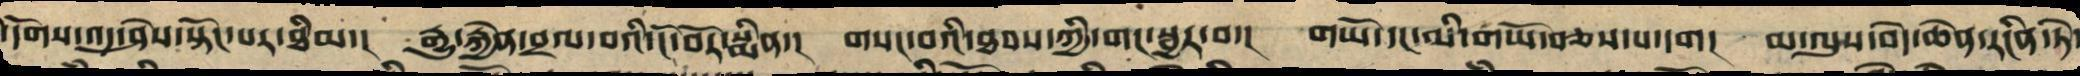་དོགས་འདུ་ཤེས་སྟོང་པར་ཐིམ་། རྒྱུ་རྐྱེན་བྲལ་བའི་ངོ་བོར་སྨིན་། གསང་བའི་ཐབས་ཀྱིས་གང་སྦྱར་བ་། གཡོ་དང་མི་གཡོ་བཅས་པ་དག། མ་ལུས་བདེ་ཆེན་རངིན་ཏེ་
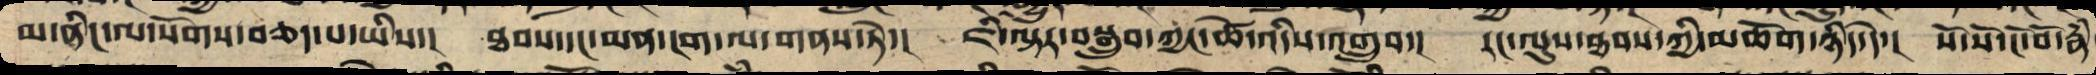མ་ནིང་ལ་སོགས་བཅད་པ་ཡིས་། ཐབས་དང་མན་ངག་ལ་གནས་ཏེ་། ཇི་ལྟར་བསྒྲུབས་ཀྱང་ཚེ་འདིས་འགྲུབ་། རང་ལུས་ཐབས་ཀྱི་མཆོག་ཉིད་དེ་། སོ་སོ་ངོ་བོར་རྣཾ
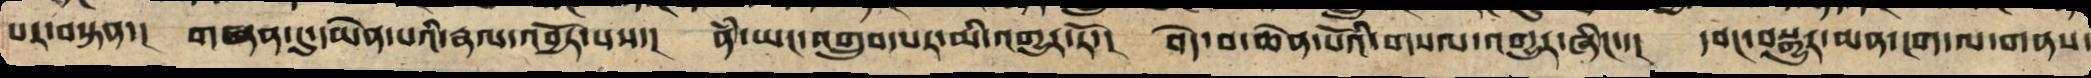པར་བསྟན་། གཞན་དུ་དམན་པའི་རྣལ་འབྱོར་པས་། ནཾ་ཡང་འགྲུབ་པར་མི་འགྱུར་རོ་། བདེ་བ་ཆེན་པོའི་གསལ་འགྱུར་ཞིང་་། དབང་བསྐུར་མན་ངག་ལ་གནས་
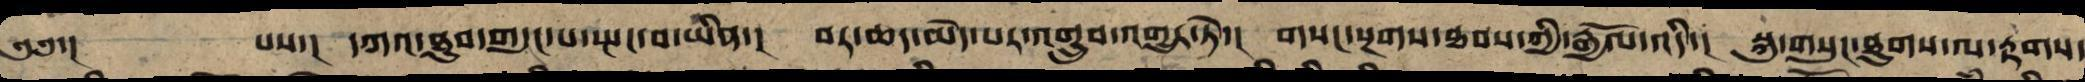༄༅་།  པས་། དཀའ་ཐུབ་གདུང་བ་སྤང་པ་ཡིན་། བར་ཆད་མེད་པར་འགྲུབ་འགྱུར་ཏེ་། གསང་སྔགས་ཐབས་ཀྱི་རྒྱལོ་འདི་། སྐུ་གསུང་ཐུགས་ལ་རྟགས་
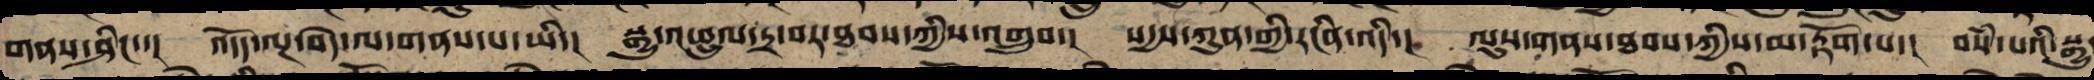གནས་ཤིང་་། འདོད་ལྔ་བདེ་ལ་གནས་པ་ཡི་། སྒྱུ་འཕྲུལ་དྲ་བར་ཐབས་ཀྱིས་འགྲུབ་། སདྱས་ཀུན་གྱི་རང་བཞིན་འདི་། ལུས་གནས་ཐབས་ཀྱིས་མ་རྟོགས་པ་། བསཾ་པའི་སྒྱུ་
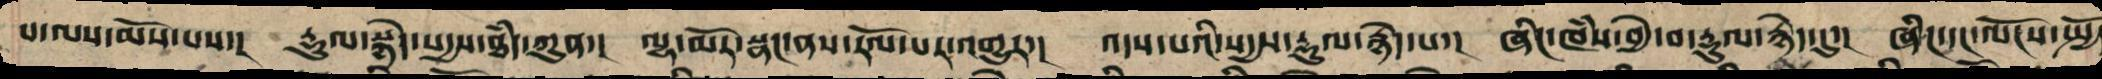པ་ལ་མོས་པས་། རྡུལ་སྙེད་སདྱས་ཐཾད་ཀུན་། ལྷ་མོར་སྣང་ནས་རོལ་པར་འགྱུར་། འདས་པའི་སདྱས་རྡུལ་སྙེད་པ་། ཞིང་ཁཾས་བྱེ་བ་རྡུལ་སྙེད་དུ་། ཞིང་དང་ལོངས་སྤྱོ
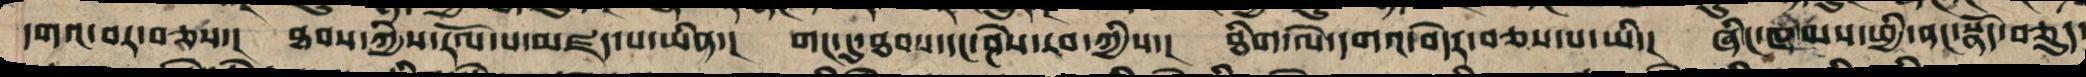དགའ་བར་བཅས་། ཐབས་ཀྱིས་རོལ་པ་མཛད་པ་ཡིན་། གང་དུ་ཐབས་དང་ཤེས་རབ་ཀྱི་། ཐིག་ལེ་དགའ་བདེར་བཅས་པ་ཡི་། ཞིང་ཁམས་ཕྱི་ནང་སྣོད་བཅུད་
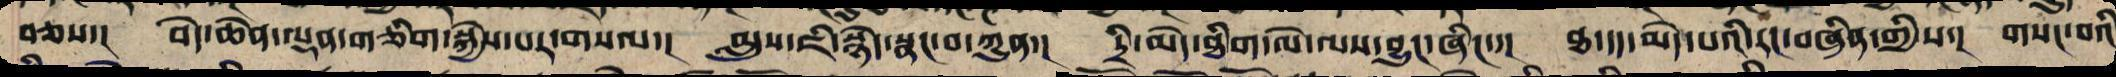བཅས་། བདེ་ཆེན་ལྷན་ཅིག་སྐྱེས་པར་གསལ་། མུས་ཇི་སྙེད་སྣང་བ་ཀུན་། དྲི་མེད་ཐིག་ལེ་ལས་འབྱུང་ཞིང་་། ཐ་དད་མེད་པའི་རང་བཞིན་གྱིས་། གསང་བའི
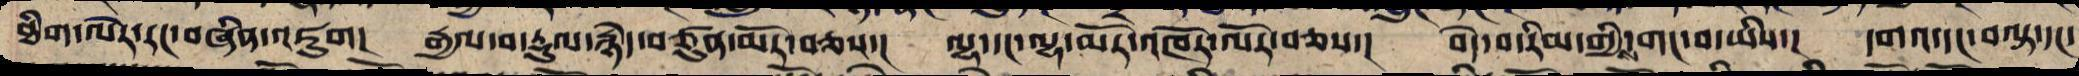ཐིག་ལེར་རང་བཞིན་འཇུག་ རྒྱལ་བ་རྡུལ་སྙེད་བཙུན་མོར་བཅས་། ལྷ་དང་ལྷ་མོ་འཁོར་ལོར་བཅས་། བདེ་བ་རིམ་གྱིས་གང་བ་ཡིས་། དགའ་དང་བལྟ་དང་
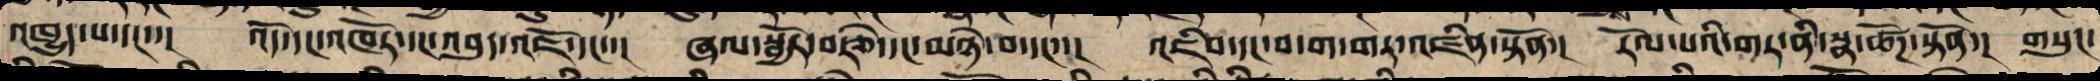འཁྱུད་པ་དང་་། འོ་དང་འཁོར་དང་འབུད་འཇོ་དང་་། ཞལ་སྦྱོར་བརྩེ་དང་མཉེ་བ་དང་་། འཇིབ་དང་བ་ག་གར་འཛིན་སྟོན་། རོལ་པའི་གར་ནི་སྣ་ཚོཌ་སྟོན་། གསུང་
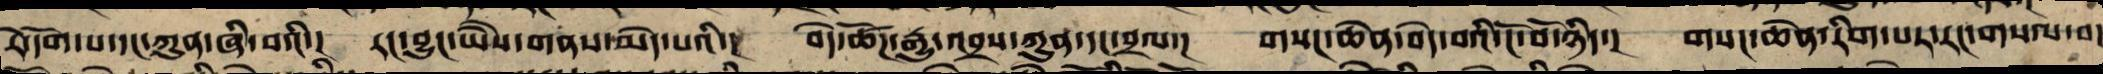རེ་དོག་པ་དང་ཀུན་ཞི་བའི་། རང་བྱུང་ཡཻས་གནས་པ་པའི་། བདེ་ཚོཌ་རྒྱུ་འབྲས་ཀུན་དང་བྲལ་། གསང་ཆེན་བདེ་བའི་ངོ་བོ་ཉིད་། གསང་ཆེན་རིག་པར་རང་གསལ་བ་
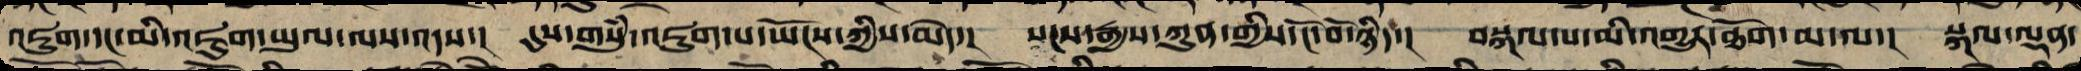འཇུག་དང་མི་འཇུག་ཡུལ་ལས་འདས་། དུས་གསུཾ་འཇུག་པ་ཡོངས་ཀྱིས་མེད་། སངས་རྒྱས་ཀུན་གྱི་ངོ་བོ་ཉིད་། བསྐལ་པ་མི་འགྱུར་ཐོག་མ་ལ་། སྐལ་ལྡན་
